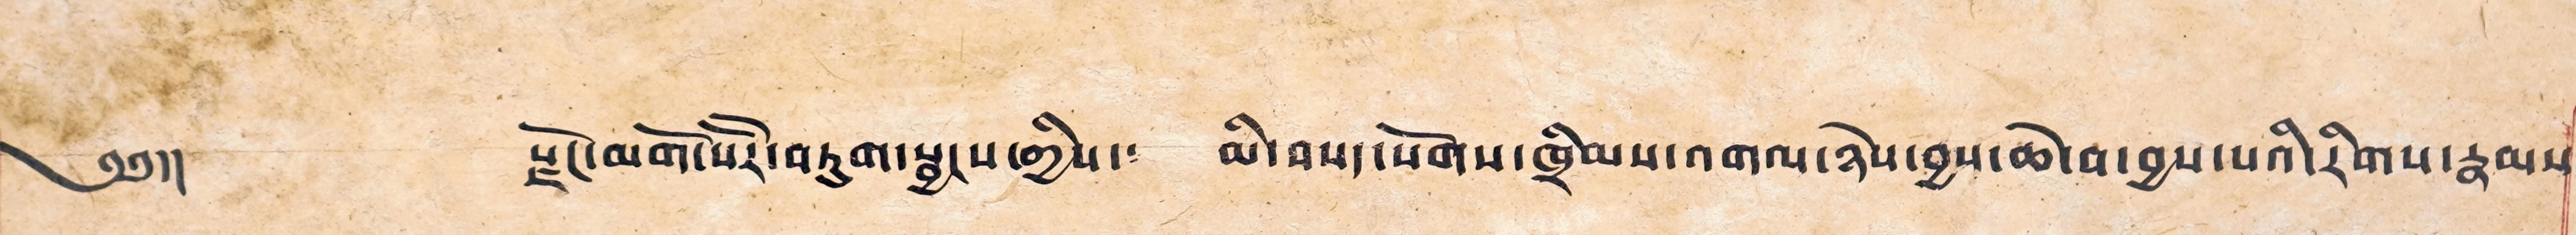༄༅།། རྫོང་མགོ་སོ་སོར་བཏུག་སྦྱངས་གྱིས་༴ མི་བསད་སོགས་ཁྲིམས་འགལ་ཉེས་བྱས་ཆེ་བ་བྱས་པའི་རིགས་རྣམས་
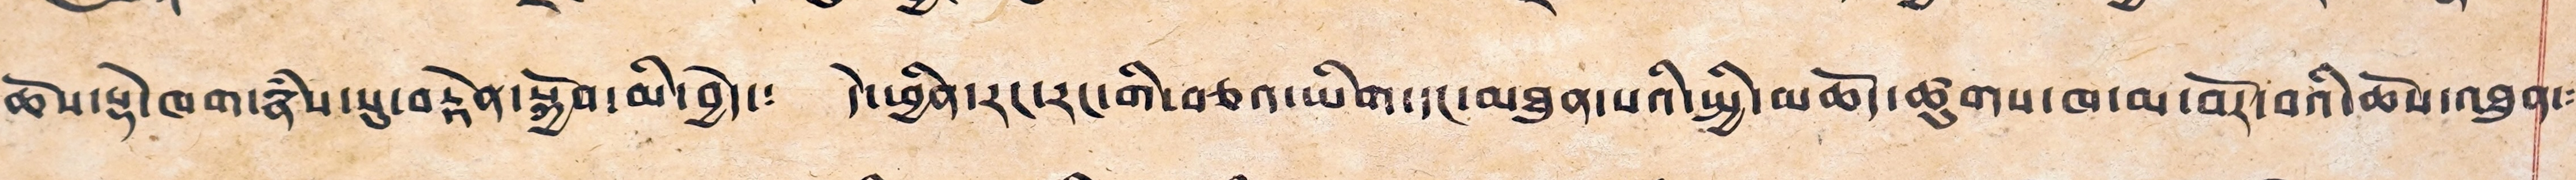ཆོས་སྡེ་ཁག་རྣཾས་སུ་བརྟེན་སྐྱོབ་མི་བྱེད་༴ དེ་ཕྱིན་རང་རང་གི་བཅའ་ཡིག་དང་མཐུན་པའི་སྤྱི་མཆོད་ཚུགས་ཁ་མ་བོར་བའི་ཆོས་འཐུན་༴
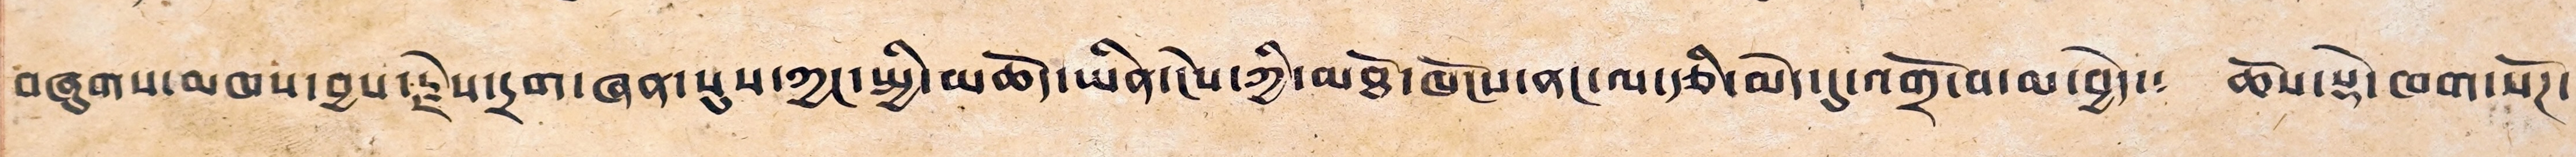བཞུགས་མཁས་བྱས་རྗེས་དྲག་ཞན་སུས་ཀྱང་སྤྱི་མཆོད་ཡིན་ངེས་ཀྱི་མཐོ་ཁོངས་ནང་ལ་རྩི་མེད་དུ་འགྲོ་བ་མ་བྱེད་༴ ཆོས་སྡེ་ཁག་སོཊ་
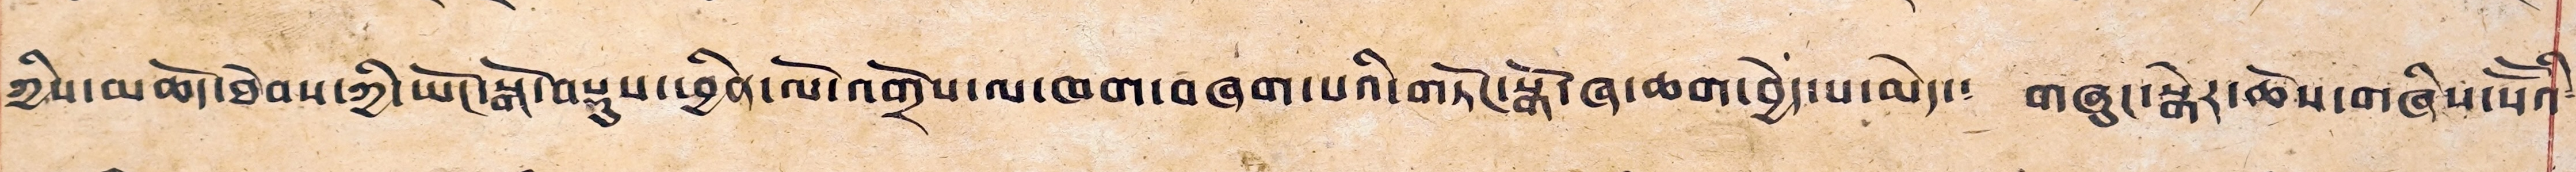ཀྱིས་མཆོད་ཐེབས་ཀྱི་ཡོང་སྒོ་བསྡུས་ཕྱིན་ལོ་འགྲོས་ལ་ཁག་བཞག་པའི་གཏོང་སྒོ་ཞ་ཆག་བྱེད་པ་མེད་༴ གཞུང་སྒེར་ཆོས་གཞིས་སོ་སོའི༴
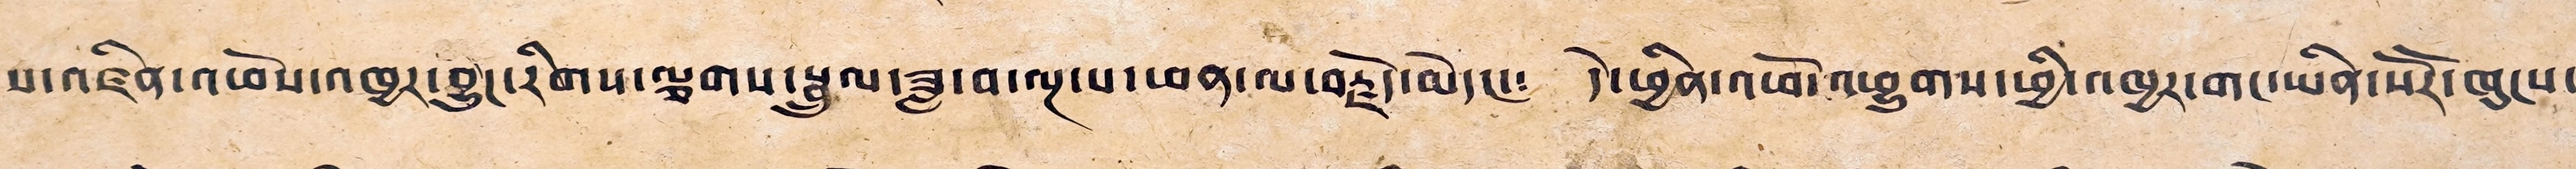ས་འཛིན་འཕོས་འཁྱར་བྱུང་རིགས་ལྕགས་སྦྲུལ་ཟླ་བ་ལྔ་པ་ཕན་ལ་བརྗོད་མེདང་༴ དེ་ཕྱིན་འཕོ་འཕྱུགས་ཕྱི་འཁྱར་གང་ཡིན་སོ་སོར་ཁུངས་
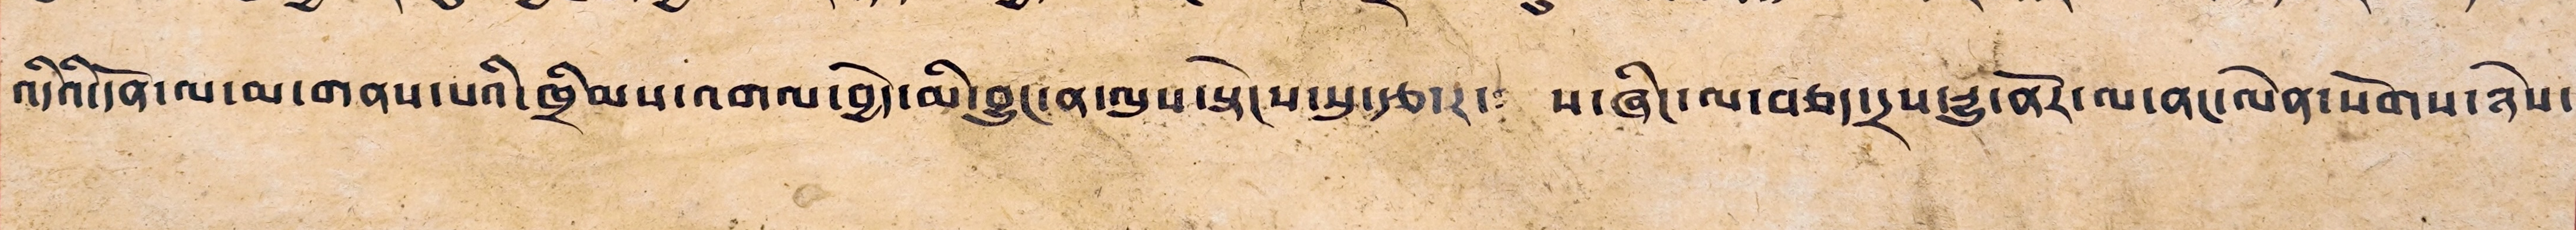འདིའི་དོན་ལ་མ་གནས་པའི་ཁྲིམས་འགལ་བྱེད་མི་བྱུང་ན་ལུས་སྡེངས་སུ་རྩར་༴ ས་ཞིང་ལ་བཅད་དྲས་རྒྱུ་ནོར་ལ་ནང་ལེན་སོགས་ཉེས་
